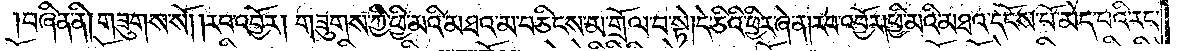བཞིན་ནི། གཟུགས་སོ། །རབ་འབྱོར། གཟུགས་ཀྱི་ཕྱི་མའི་མཐའ་མ་བཅིངས་མ་གྲོལ་བ་སྟེ། དེ་ཅིའི་ཕྱིར་ཞེ་ན། རབ་འབྱོར། ཕྱི་མའི་མཐའ་དངོས་པོ་མེད་པའི་རང་
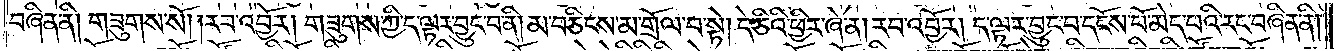བཞིན་ནི། གཟུགས་སོ། །རབ་འབྱོར། གཟུགས་ཀྱི་ད་ལྟར་བྱུང་བ་ནི། མ་བཅིངས་མ་གྲོལ་བ་སྟེ། དེ་ཅིའི་ཕྱིར་ཞེ་ན། རབ་འབྱོར། ད་ལྟར་བྱུང་བ་དངོས་པོ་མེད་པའི་རང་བཞིན་ནི།
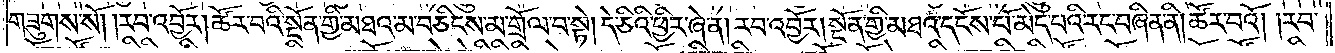གཟུགས་སོ། །རབ་འབྱོར། ཚོར་བའི་སྔོན་གྱི་མཐའ་མ་བཅིངས་མ་གྲོལ་བ་སྟེ། དེ་ཅིའི་ཕྱིར་ཞེ་ན། རབ་འབྱོར། སྔོན་གྱི་མཐའ་དངོས་པོ་མེད་པའི་རང་བཞིན་ནི། ཚོར་བའོ། །རབ་
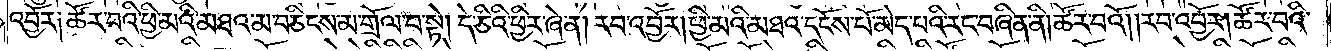འབྱོར༑ ཚོར་བའི་ཕྱི་མའི་མཐའ་མ་བཅིངས་མ་གྲོལ་བ་སྟེ། དེ་ཅིའི་ཕྱིར་ཞེ་ན། རབ་འབྱོར། ཕྱི་མའི་མཐའ་དངོས་པོ་མེད་པའི་རང་བཞིན་ནི། ཚོར་བའོ། །རབ་འབྱོར། ཚོར་བའི་
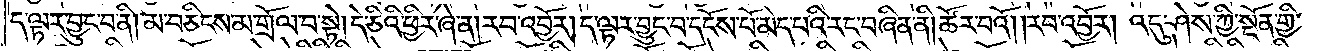ད་ལྟར་བྱུང་བ་ནི། མ་བཅིངས་མ་གྲོལ་བ་སྟེ། དེ་ཅིའི་ཕྱིར་ཞེ་ན། རབ་འབྱོར། ད་ལྟར་བྱུང་བ་དངོས་པོ་མེད་པའི་རང་བཞིན་ནི། ཚོར་བའོ། །རབ་འབྱོར། འདུ་ཤེས་ཀྱི་སྔོན་གྱི་
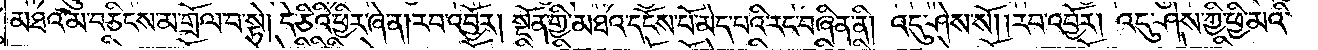མཐའ་མ་བཅིངས་མ་གྲོལ་བ་སྟེ། དེ་ཅིའི་ཕྱིར་ཞེ་ན། རབ་འབྱོར། སྔོན་གྱི་མཐའ་དངོས་པོ་མེད་པའི་རང་བཞིན་ནི། འདུ་ཤེས་སོ། །རབ་འབྱོར། འདུ་ཤེས་ཀྱི་ཕྱི་མའི་
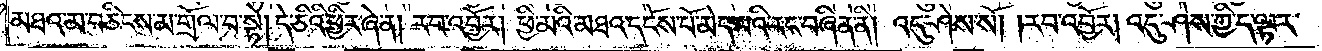མཐའ་མ་བཅིངས་མ་གྲོལ་བ་སྟེ། དེ་ཅིའི་ཕྱིར་ཞེ་ན། རབ་འབྱོར། ཕྱི་མའི་མཐའ་དངོས་པོ་མེད་པའི་རང་བཞིན་ནི། འདུ་ཤེས་སོ། །རབ་འབྱོར། འདུ་ཤེས་ཀྱི་ད་ལྟར་
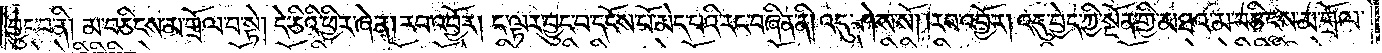བྱུང་བ་ནི། མ་བཅིངས་མ་གྲོལ་བ་སྟེ། དེ་ཅིའི་ཕྱིར་ཞེ་ན། རབ་འབྱོར། ད་ལྟར་བྱུང་བ་དངོས་པོ་མེད་པའི་རང་བཞིན་ནི། འདུ་ཤེས་སོ། །རབ་འབྱོར། འདུ་བྱེད་ཀྱི་སྔོན་གྱི་མཐའ་མ་བཅིངས་མ་གྲོལ་
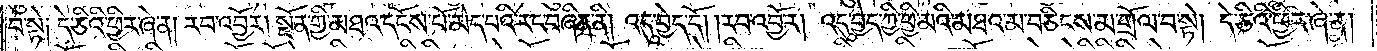བ་སྟེ༑ དེ་ཅིའི་ཕྱིར་ཞེ་ན། རབ་འབྱོར། སྔོན་གྱི་མཐའ་དངོས་པོ་མེད་པའི་རང་བཞིན་ནི། འདུ་བྱེད་དོ། །རབ་འབྱོར། འདུ་བྱེད་ཀྱི་ཕྱི་མའི་མཐའ་མ་བཅིངས་མ་གྲོལ་བ་སྟེ། དེ་ཅིའི་ཕྱིར་ཞེ་ན།
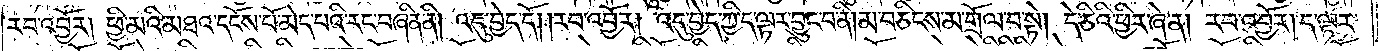རབ་འབྱོར། ཕྱི་མའི་མཐའ་དངོས་པོ་མེད་པའི་རང་བཞིན་ནི། འདུ་བྱེད་དོ། །རབ་འབྱོར། འདུ་བྱེད་ཀྱི་ད་ལྟར་བྱུང་བ་ནི། མ་བཅིངས་མ་གྲོལ་བ་སྟེ། དེ་ཅིའི་ཕྱིར་ཞེ་ན། རབ་འབྱོར། ད་ལྟར་
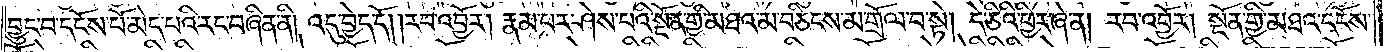བྱུང་བ་དངོས་པོ་མེད་པའི་རང་བཞིན་ནི། འདུ་བྱེད་དོ། །རབ་འབྱོར། རྣམ་པར་ཤེས་པའི་སྔོན་གྱི་མཐའ་མ་བཅིངས་མ་གྲོལ་བ་སྟེ། དེ་ཅིའི་ཕྱིར་ཞེ་ན། རབ་འབྱོར། སྔོན་གྱི་མཐའ་དངོས་
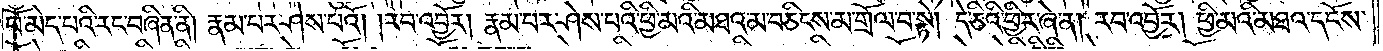པོ་མེད་པའི་རང་བཞིན་ནི། རྣམ་པར་ཤེས་པའོ། །རབ་འབྱོར། རྣམ་པར་ཤེས་པའི་ཕྱི་མའི་མཐའ་མ་བཅིངས་མ་གྲོལ་བ་སྟེ། དེ་ཅིའི་ཕྱིར་ཞེ་ན། རབ་འབྱོར། ཕྱི་མའི་མཐའ་དངོས་
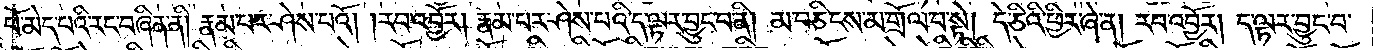པོ་མེད་པའི་རང་བཞིན་ནི། རྣམ་པར་ཤེས་པའོ། །རབ་འབྱོར། རྣམ་པར་ཤེས་པའི་ད་ལྟར་བྱུང་བ་ནི། མ་བཅིངས་མ་གྲོལ་བ་སྟེ། དེ་ཅིའི་ཕྱིར་ཞེ་ན། རབ་འབྱོར། ད་ལྟར་བྱུང་བ་
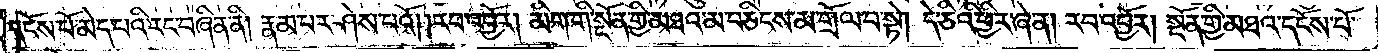དངོས་པོ་མེད་པའི་རང་བཞིན་ནི། རྣམ་པར་ཤེས་པའོ། །རབ་འབྱོར། མིག་གི་སྔོན་གྱི་མཐའ་མ་བཅིངས་མ་གྲོལ་བ་སྟེ། དེ་ཅིའི་ཕྱིར་ཞེ་ན། རབ་འབྱོར། སྔོན་གྱི་མཐའ་དངོས་པོ་
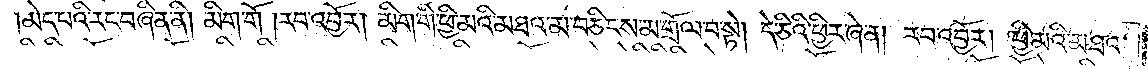མེད་པའི་རང་བཞིན་ནི། མིག་གོ །རབ་འབྱོར། མིག་གི་ཕྱི་མའི་མཐའ་མ་བཅིངས་མ་གྲོལ་བ་སྟེ། དེ་ཅིའི་ཕྱིར་ཞེ་ན། རབ་འབྱོར། ཕྱི་མའི་མཐའ་
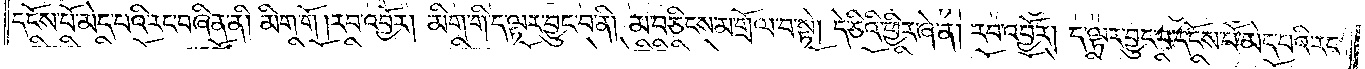དངོས་པོ་མེད་པའི་རང་བཞིན་ནི། མིག་གོ །རབ་འབྱོར། མིག་གི་ད་ལྟར་བྱུང་བ་ནི། མ་བཅིངས་མ་གྲོལ་བ་སྟེ། དེ་ཅིའི་ཕྱིར་ཞེ་ན། རབ་འབྱོར། ད་ལྟར་བྱུང་བ་དངོས་པོ་མེད་པའི་རང་
